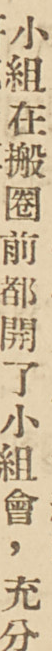小組在搬圈前都開了小組會，充分
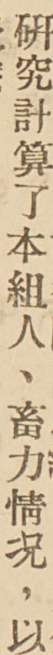研究計算了本組人、畜力情况，以
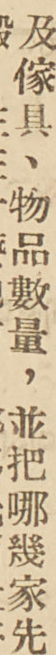及傢具、物品數量，並把哪幾家先
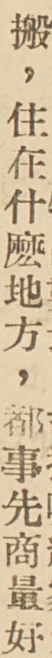搬，住在什麼地方，都事先商量好
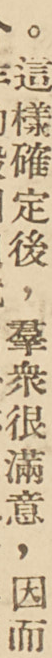。這樣確定後，羣衆很滿意，因而
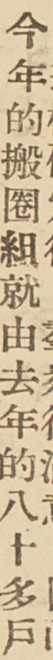今年的搬圈組就由去年的八十多戶
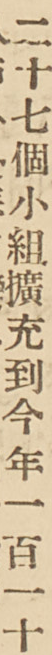二十七個小組擴充到今年一百一十
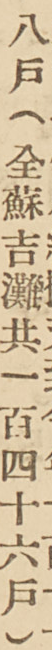八戶（全蘇吉灘共一百四十六戶）
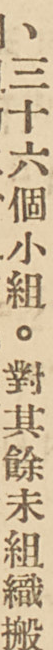、三十六個小組。對其餘未組織搬
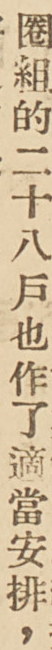圈組的二十八戶也作了適當安排，
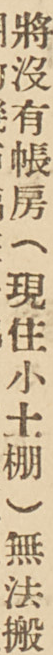將沒有帳房（現住小土棚）無法搬
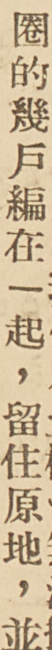圈的幾戶編在一起，留住原地，並
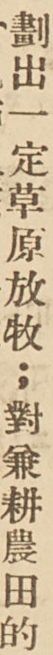劃出一定草原放牧；對兼耕農田的
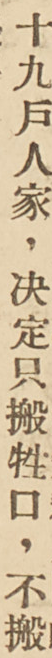十九戶人家，決定只搬牲口，不搬
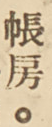帳房。
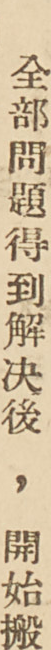全部問題得到解决後，開始搬
